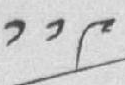༡༡༩
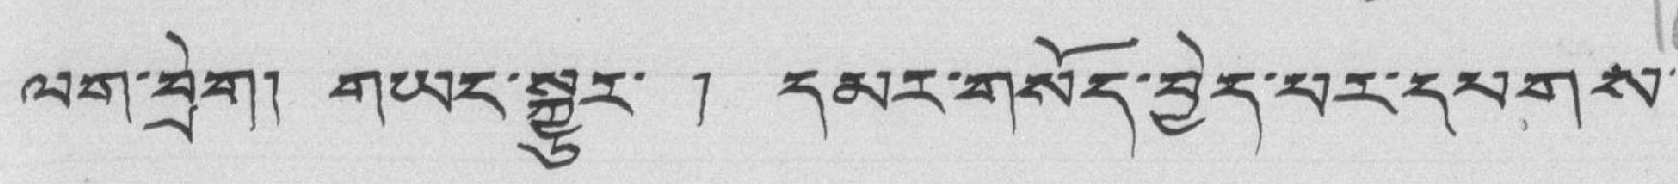ལག་བྲེག། གཡང་སྒྱུར་ ། དམར་གསོད་བྱེད་པར་དཔགས་
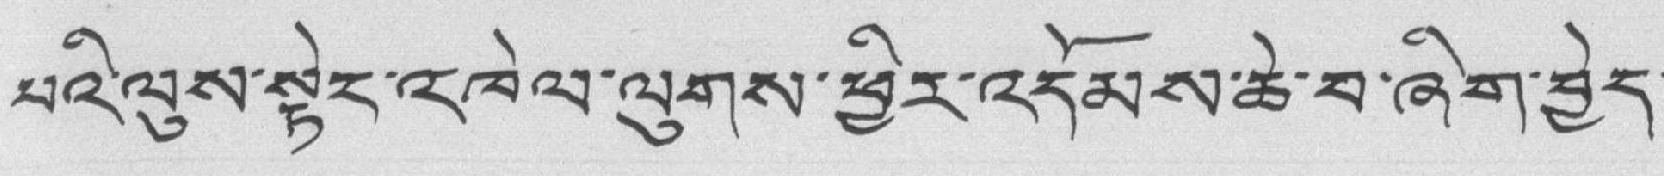པའི་ལུས་སྟེང་འཁེལ་ལུགས་ཕྱིར་འདོམས་ཆེ་བ་ཞིག་བྱེད་
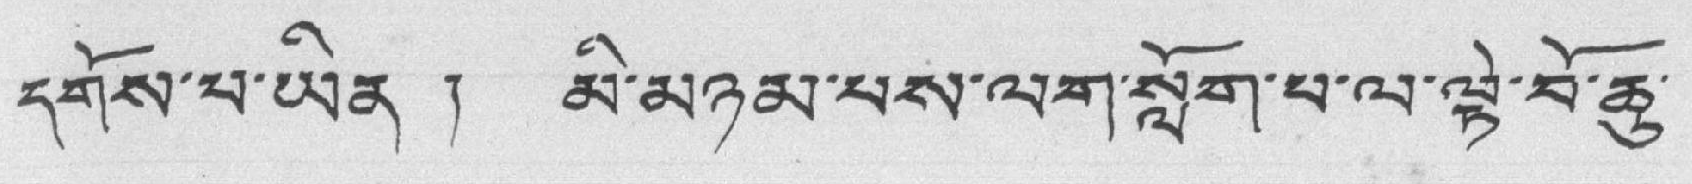དགོས་པ་ཡིན ། མི་མཉམ་པས་ལག་སློག་པ་ལ་ལྟེ་བོ་ཆུ་
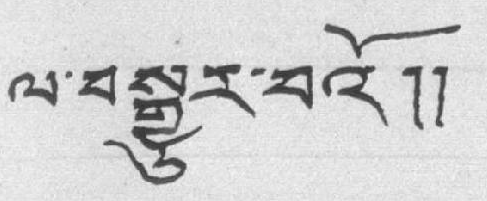ལ་བསྒྱུར་བའོ།།
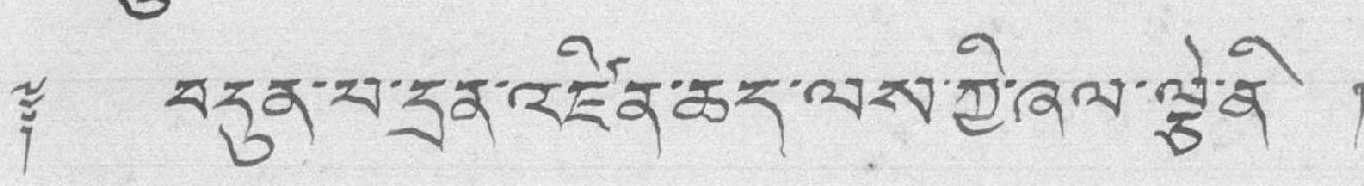༈ བདུན་པ་དྲན་འཛིན་ཆད་ལས་ཀྱི་ཞལ་ལྕེ་ནི །
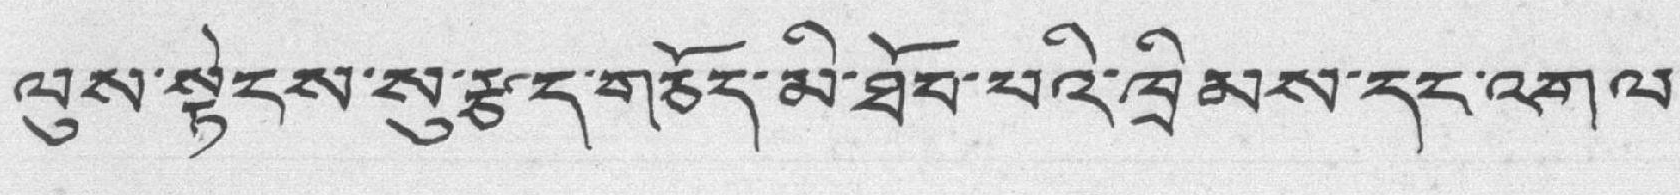ལུས་སྟེངས་སུ་རྩད་གཅོད་མི་ཐོབ་པའི་ཁྲིམས་དང་འགལ་
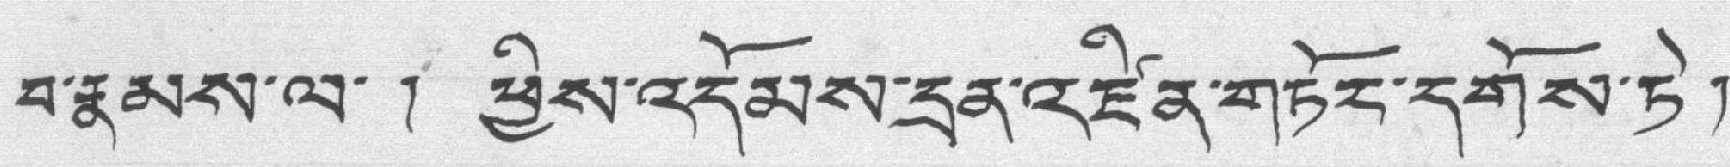བ་རྣམས་ལ་ ། ཕྱིས་འདོམས་དྲན་འཛིན་གཏོར་དགོས་ཏེ །
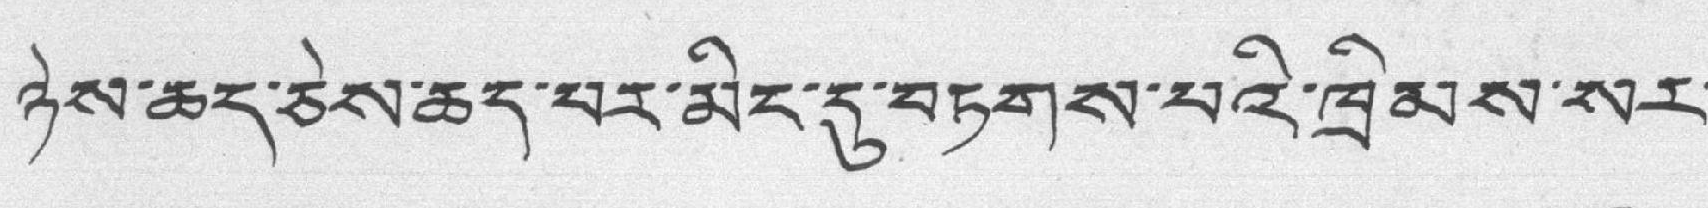ཉེས་ཆད་ཅེས་ཆད་བར་མིང་དུ་བཏགས་པའི་ཁྲིམས་སར་
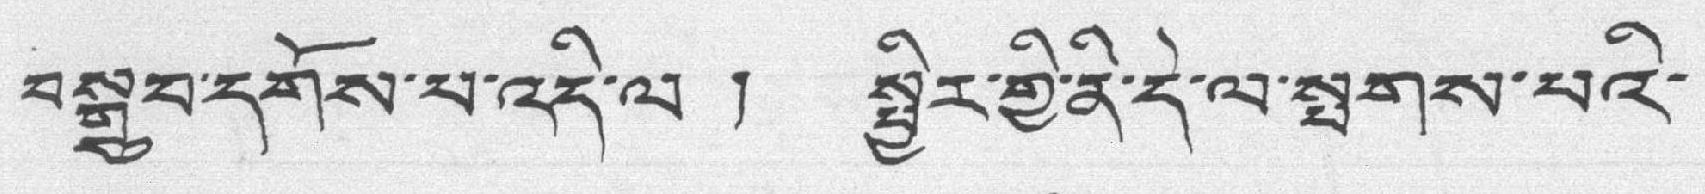བསྒྲུབ་དགོས་པ་འདི་ལ ། སྤྱིར་གྱི་ནི་དེ་ལ་སྤགས་པའི་
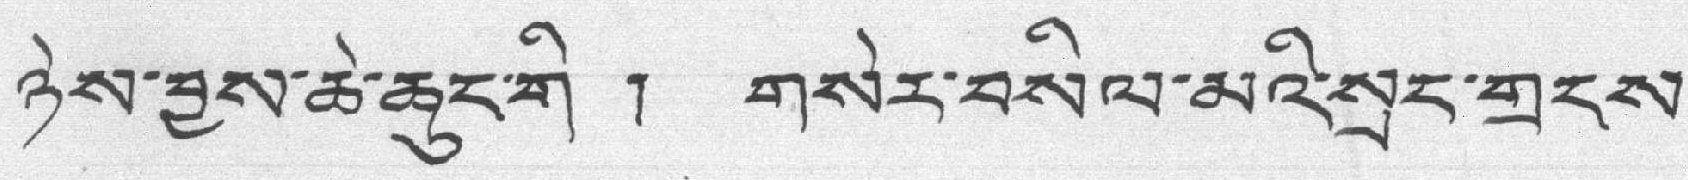ཉེས་བྱས་ཆེ་ཆུང་གི ། གསེར་བསིལ་མའི་སྲང་གྲངས་
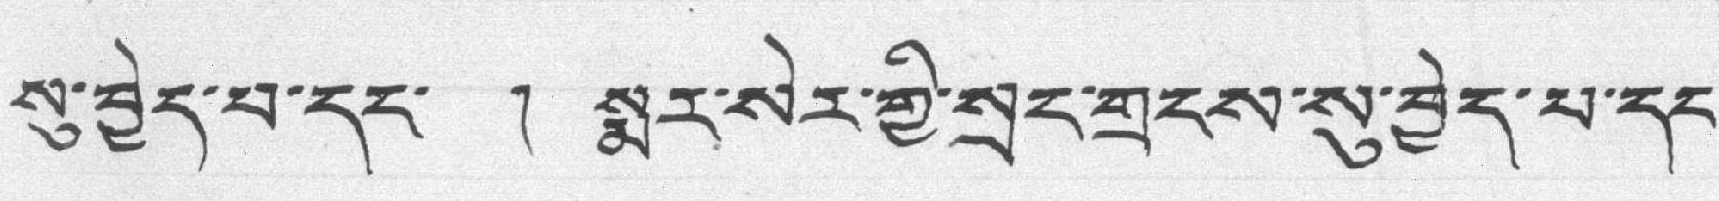སུ་བྱེད་པ་དང་ ། སྨར་སེར་གྱི་སྲང་གྲངས་སུ་བྱེད་པ་དང་
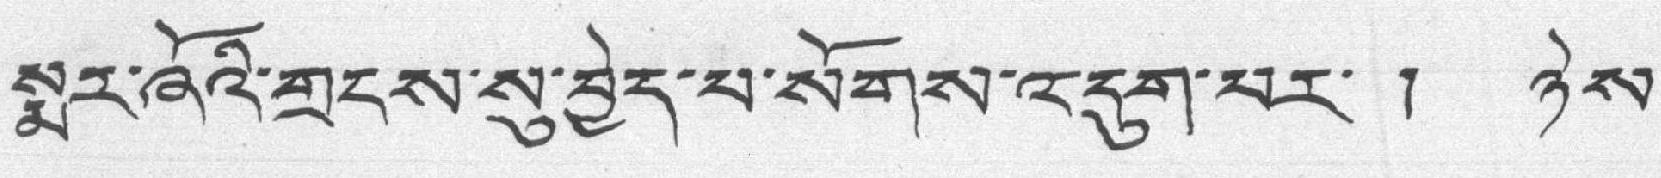སྨར་ཞོའི་གྲངས་སུ་བྱེད་པ་སོགས་འདུག་པར་ ། ཉེས་
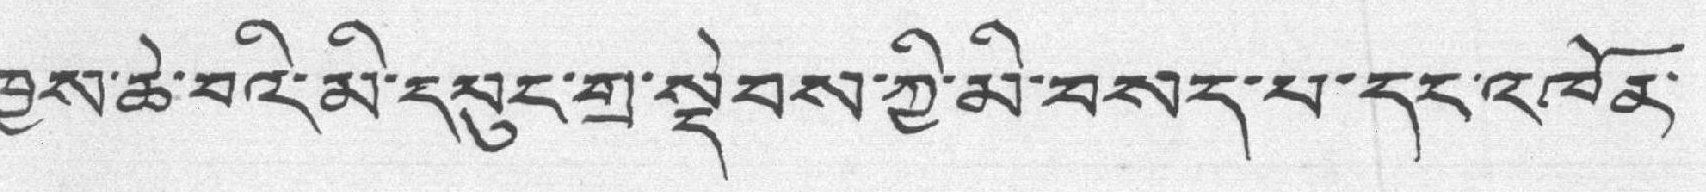བྱས་ཆེ་བའི་མི་དཔུང་གྲ་སྡེབས་ཀྱི་མི་བསད་པ་དང་འཁོན་
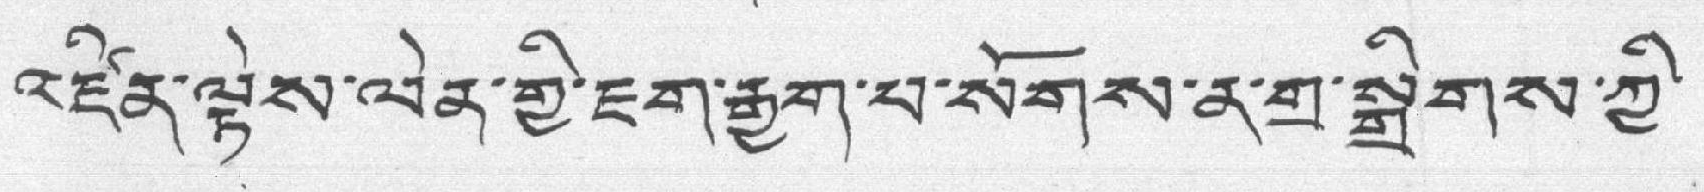འཛིན་ལྟེས་ལེན་གྱི་ཇག་རྒྱག་པ་སོགས་ན་གྲ་སྒྲིགས་ཀྱི་
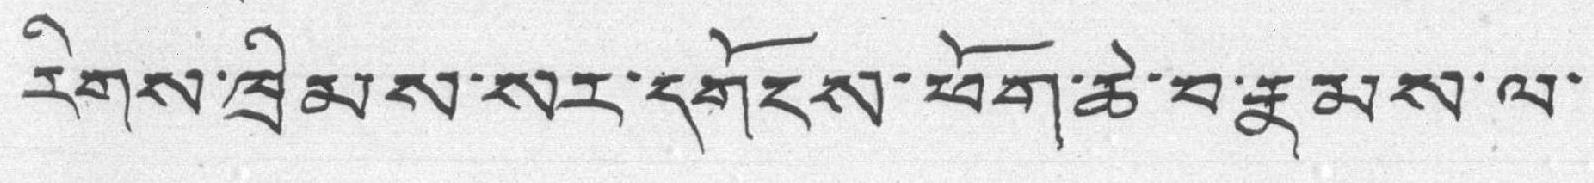རིགས་ཁྲིམས་སར་དགོངས་ཕོག་ཆེ་བ་རྣམས་ལ་
